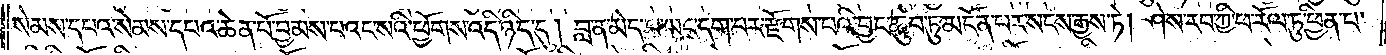སེམས་དཔའ་སེམས་དཔའ་ཆེན་པོ་བྱམས་པའང་སའི་ཕྱོགས་འདི་ཉིད་དུ། བླ་ན་མེད་པ་ཡང་དག་པར་རྫོགས་པའི་བྱང་ཆུབ་ཏུ་མངོན་པར་སངས་རྒྱས་ཏེ། ཤེས་རབ་ཀྱི་ཕ་རོལ་ཏུ་ཕྱིན་པ་
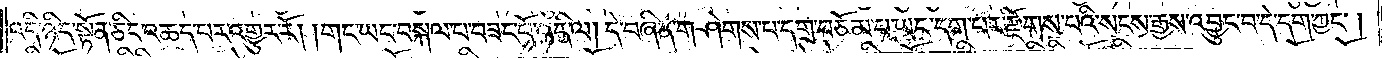འདི་ཉིད་སྟོན་ཅིང་འཆད་པར་འགྱུར་རོ། །གང་ཡང་བསྐལ་བ་བཟང་པོ་འདི་ལ། དེ་བཞིན་གཤེགས་པ་དགྲ་བཅོམ་པ་ཡང་དག་པར་རྫོགས་པའི་སངས་རྒྱས་འབྱུང་བ་དེ་དག་ཀྱང༌།
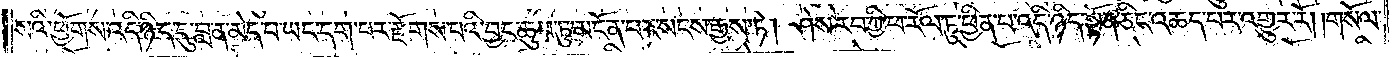སའི་ཕྱོགས་འདི་ཉིད་དུ་བླ་ན་མེད་པ་ཡང་དག་པར་རྫོགས་པའི་བྱང་ཆུབ་ཏུ་མངོན་པར་སངས་རྒྱས་ཏེ། ཤེས་རབ་ཀྱི་ཕ་རོལ་ཏུ་ཕྱིན་པ་འདི་ཉིད་སྟོན་ཅིང་འཆད་པར་འགྱུར་རོ། །གསོལ་
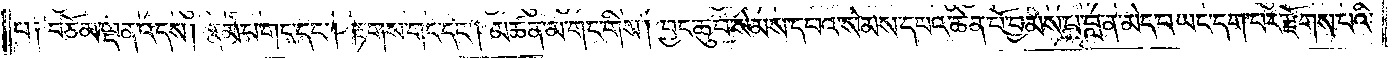པ༑ བཅོམ་ལྡན་འདས། རྣམ་པ་གང་དང༌། རྟགས་གང་དང༌། མཚན་མ་གང་གིས། བྱང་ཆུབ་སེམས་དཔའ་སེམས་དཔའ་ཆེན་པོ་བྱམས་པ་བླ་ན་མེད་པ་ཡང་དག་པར་རྫོགས་པའི་
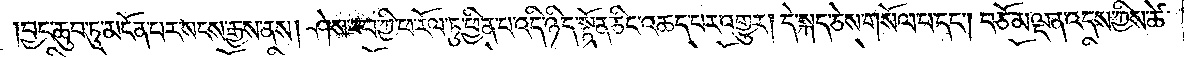བྱང་ཆུབ་ཏུ་མངོན་པར་སངས་རྒྱས་ནས། ཤེས་རབ་ཀྱི་ཕ་རོལ་ཏུ་ཕྱིན་པ་འདི་ཉིད་སྟོན་ཅིང་འཆད་པར་འགྱུར། དེ་སྐད་ཅེས་གསོལ་པ་དང༌། བཅོམ་ལྡན་འདས་ཀྱིས་ཚེ་
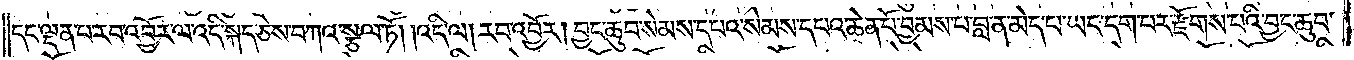དང་ལྡན་པ་རབ་འབྱོར་ལ་འདི་སྐད་ཅེས་བཀའ་སྩལ་ཏོ། །འདི་ལ། རབ་འབྱོར། བྱང་ཆུབ་སེམས་དཔའ་སེམས་དཔའ་ཆེན་པོ་བྱམས་པ་བླ་ན་མེད་པ་ཡང་དག་པར་རྫོགས་པའི་བྱང་ཆུབ་
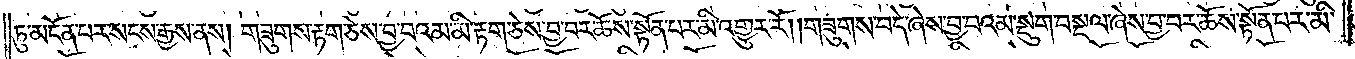ཏུ་མངོན་པར་སངས་རྒྱས་ནས། གཟུགས་རྟག་ཅེས་བྱ་བའམ་མི་རྟག་ཅེས་བྱ་བར་ཆོས་སྟོན་པར་མི་འགྱུར་རོ། །གཟུགས་བདེ་ཞེས་བྱ་བའམ་སྡུག་བསྔལ་ཞེས་བྱ་བར་ཆོས་སྟོན་པར་མི་
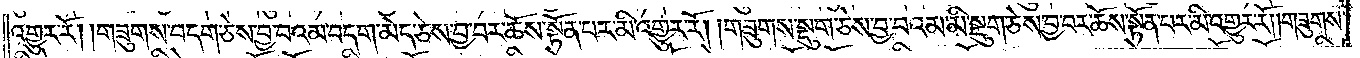འགྱུར་རོ། །གཟུགས་བདག་ཅེས་བྱ་བའམ་བདག་མེད་ཅེས་བྱ་བར་ཆོས་སྟོན་པར་མི་འགྱུར་རོ། །གཟུགས་སྡུག་ཅེས་བྱ་བའམ་མི་སྡུག་ཅེས་བྱ་བར་ཆོས་སྟོན་པར་མི་འགྱུར་རོ། །གཟུགས་
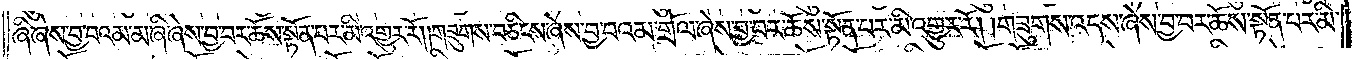ཞི་ཞེས་བྱ་བའམ་མ་ཞི་ཞེས་བྱ་བར་ཆོས་སྟོན་པར་མི་འགྱུར་རོ། །གཟུགས་བཅིངས་ཞེས་བྱ་བའམ་གྲོལ་ཞེས་བྱ་བར་ཆོས་སྟོན་པར་མི་འགྱུར་རོ། །གཟུགས་འདས་ཞེས་བྱ་བར་ཆོས་སྟོན་པར་མི་
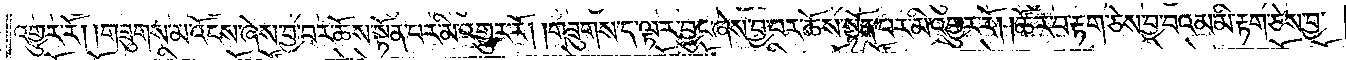འགྱུར་རོ། །གཟུགས་མ་འོངས་ཞེས་བྱ་བར་ཆོས་སྟོན་པར་མི་འགྱུར་རོ། །གཟུགས་ད་ལྟར་བྱུང་ཞེས་བྱ་བར་ཆོས་སྟོན་པར་མི་འགྱུར་རོ། །ཚོར་བ་རྟག་ཅེས་བྱ་བའམ་མི་རྟག་ཅེས་བྱ་
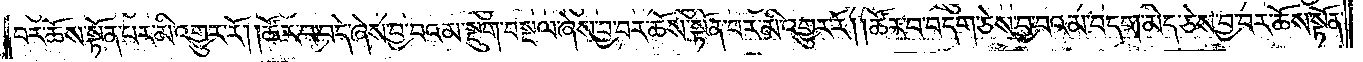བར་ཆོས་སྟོན་པར་མི་འགྱུར་རོ། །ཚོར་བ་བདེ་ཞེས་བྱ་བའམ་སྡུག་བསྔལ་ཞེས་བྱ་བར་ཆོས་སྟོན་པར་མི་འགྱུར་རོ། །ཚོར་བ་བདག་ཅེས་བྱ་བའམ་བདག་མེད་ཅེས་བྱ་བར་ཆོས་སྟོན་
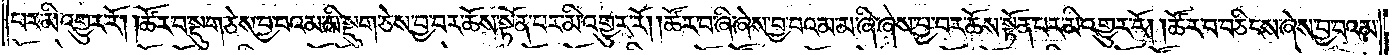པར་མི་འགྱུར་རོ། །ཚོར་བ་སྡུག་ཅེས་བྱ་བའམ་མི་སྡུག་ཅེས་བྱ་བར་ཆོས་སྟོན་པར་མི་འགྱུར་རོ། །ཚོར་བ་ཞི་ཞེས་བྱ་བའམ་མ་ཞི་ཞེས་བྱ་བར་ཆོས་སྟོན་པར་མི་འགྱུར་རོ། །ཚོར་བ་བཅིངས་ཞེས་བྱ་བའམ་
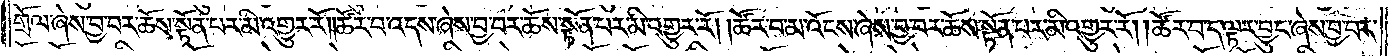གྲོལ་ཞེས་བྱ་བར་ཆོས་སྟོན་པར་མི་འགྱུར་རོ། །ཚོར་བ་འདས་ཞེས་བྱ་བར་ཆོས་སྟོན་པར་མི་འགྱུར་རོ། །ཚོར་བ་མ་འོངས་ཞེས་བྱ་བར་ཆོས་སྟོན་པར་མི་འགྱུར་རོ། །ཚོར་བ་ད་ལྟར་བྱུང་ཞེས་བྱ་བར་
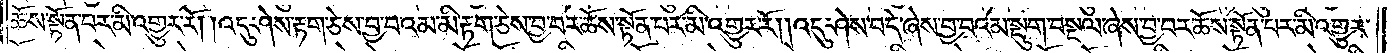ཆོས་སྟོན་པར་མི་འགྱུར་རོ། །འདུ་ཤེས་རྟག་ཅེས་བྱ་བའམ་མི་རྟག་ཅེས་བྱ་བར་ཆོས་སྟོན་པར་མི་འགྱུར་རོ། །འདུ་ཤེས་བདེ་ཞེས་བྱ་བའམ་སྡུག་བསྔལ་ཞེས་བྱ་བར་ཆོས་སྟོན་པར་མི་འགྱུར་
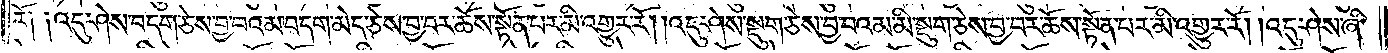རོ༑ ༑འདུ་ཤེས་བདག་ཅེས་བྱ་བའམ་བདག་མེད་ཅེས་བྱ་བར་ཆོས་སྟོན་པར་མི་འགྱུར་རོ། །འདུ་ཤེས་སྡུག་ཅེས་བྱ་བའམ་མི་སྡུག་ཅེས་བྱ་བར་ཆོས་སྟོན་པར་མི་འགྱུར་རོ། །འདུ་ཤེས་ཞི་
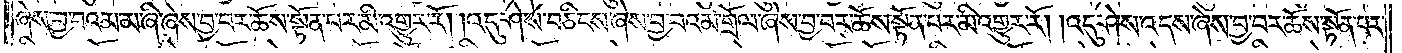ཞེས་བྱ་བའམ་མ་ཞི་ཞེས་བྱ་བར་ཆོས་སྟོན་པར་མི་འགྱུར་རོ། །འདུ་ཤེས་བཅིངས་ཞེས་བྱ་བའམ་གྲོལ་ཞེས་བྱ་བར་ཆོས་སྟོན་པར་མི་འགྱུར་རོ། །འདུ་ཤེས་འདས་ཞེས་བྱ་བར་ཆོས་སྟོན་པར་
